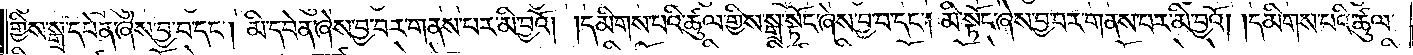གྱིས་སྒྲ་དབེན་ཞེས་བྱ་བ་དང༌། མི་དབེན་ཞེས་བྱ་བར་གནས་པར་མི་བྱའོ། །དམིགས་པའི་ཚུལ་གྱིས་སྒྲ་སྟོང་ཞེས་བྱ་བ་དང༌། མི་སྟོང་ཞེས་བྱ་བར་གནས་པར་མི་བྱའོ། །དམིགས་པའི་ཚུལ་
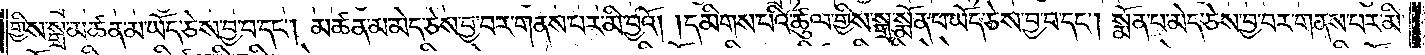གྱིས་སྒྲ་མཚན་མ་ཡོད་ཅེས་བྱ་བ་དང༌། མཚན་མ་མེད་ཅེས་བྱ་བར་གནས་པར་མི་བྱའོ། །དམིགས་པའི་ཚུལ་གྱིས་སྒྲ་སྨོན་པ་ཡོད་ཅེས་བྱ་བ་དང༌། སྨོན་པ་མེད་ཅེས་བྱ་བར་གནས་པར་མི་
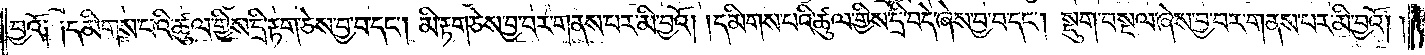བྱའོ༏ ༏དམིགས་པའི་ཚུལ་གྱིས་དྲི་རྟག་ཅེས་བྱ་བ་དང༌། མི་རྟག་ཅེས་བྱ་བར་གནས་པར་མི་བྱའོ། །དམིགས་པའི་ཚུལ་གྱིས་དྲི་བདེ་ཞེས་བྱ་བ་དང༌། སྡུག་བསྔལ་ཞེས་བྱ་བར་གནས་པར་མི་བྱའོ། །
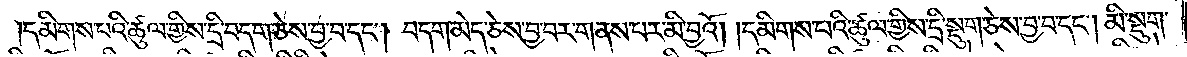དམིགས་པའི་ཚུལ་གྱིས་དྲི་བདག་ཅེས་བྱ་བ་དང༌། བདག་མེད་ཅེས་བྱ་བར་གནས་པར་མི་བྱའོ། །དམིགས་པའི་ཚུལ་གྱིས་དྲི་སྡུག་ཅེས་བྱ་བ་དང༌། མི་སྡུག་
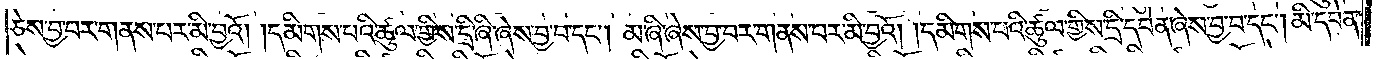ཅེས་བྱ་བར་གནས་པར་མི་བྱའོ། །དམིགས་པའི་ཚུལ་གྱིས་དྲི་ཞི་ཞེས་བྱ་བ་དང༌། མ་ཞི་ཞེས་བྱ་བར་གནས་པར་མི་བྱའོ། །དམིགས་པའི་ཚུལ་གྱིས་དྲི་དབེན་ཞེས་བྱ་བ་དང༌། མི་དབེན་
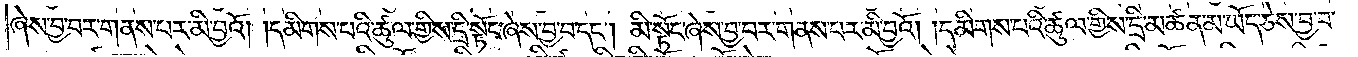ཞེས་བྱ་བར་གནས་པར་མི་བྱའོ། །དམིགས་པའི་ཚུལ་གྱིས་དྲི་སྟོང་ཞེས་བྱ་བ་དང༌། མི་སྟོང་ཞེས་བྱ་བར་གནས་པར་མི་བྱའོ། །དམིགས་པའི་ཚུལ་གྱིས་དྲི་མཚན་མ་ཡོད་ཅེས་བྱ་བ་
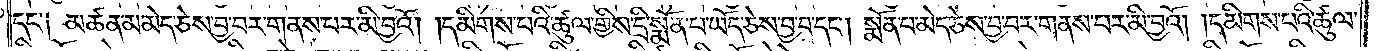དང༌༏ མཚན་མ་མེད་ཅེས་བྱ་བར་གནས་པར་མི་བྱའོ། །དམིགས་པའི་ཚུལ་གྱིས་དྲི་སྨོན་པ་ཡོད་ཅེས་བྱ་བ་དང༌། སྨོན་པ་མེད་ཅེས་བྱ་བར་གནས་པར་མི་བྱའོ། །དམིགས་པའི་ཚུལ་
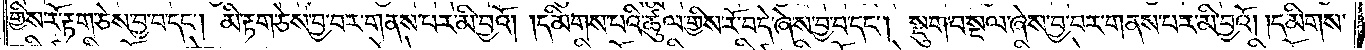གྱིས་རོ་རྟག་ཅེས་བྱ་བ་དང༌། མི་རྟག་ཅེས་བྱ་བར་གནས་པར་མི་བྱའོ། །དམིགས་པའི་ཚུལ་གྱིས་རོ་བདེ་ཞེས་བྱ་བ་དང༌། སྡུག་བསྔལ་ཞེས་བྱ་བར་གནས་པར་མི་བྱའོ། །དམིགས་
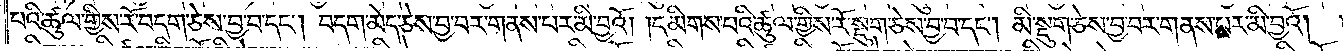པའི་ཚུལ་གྱིས་རོ་བདག་ཅེས་བྱ་བ་དང༌། བདག་མེད་ཅེས་བྱ་བར་གནས་པར་མི་བྱའོ། །དམིགས་པའི་ཚུལ་གྱིས་རོ་སྡུག་ཅེས་བྱ་བ་དང༌། མི་སྡུག་ཅེས་བྱ་བར་གནས་པར་མི་བྱའོ། །
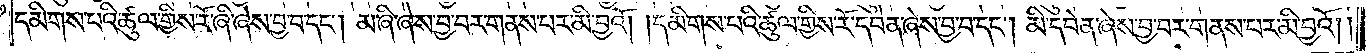དམིགས་པའི་ཚུལ་གྱིས་རོ་ཞི་ཞེས་བྱ་བ་དང༌། མ་ཞི་ཞེས་བྱ་བར་གནས་པར་མི་བྱའོ། །དམིགས་པའི་ཚུལ་གྱིས་རོ་དབེན་ཞེས་བྱ་བ་དང༌། མི་དབེན་ཞེས་བྱ་བར་གནས་པར་མི་བྱའོ། །
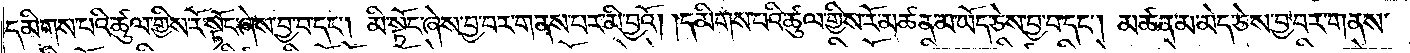དམིགས་པའི་ཚུལ་གྱིས་རོ་སྟོང་ཞེས་བྱ་བ་དང༌། མི་སྟོང་ཞེས་བྱ་བར་གནས་པར་མི་བྱའོ། །དམིགས་པའི་ཚུལ་གྱིས་རོ་མཚན་མ་ཡོད་ཅེས་བྱ་བ་དང༌། མཚན་མ་མེད་ཅེས་བྱ་བར་གནས་
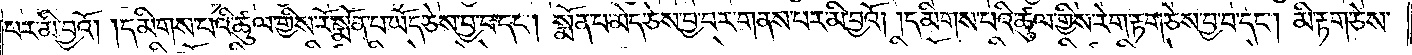པར་མི་བྱའོ། །དམིགས་པའི་ཚུལ་གྱིས་རོ་སྨོན་པ་ཡོད་ཅེས་བྱ་བ་དང༌། སྨོན་པ་མེད་ཅེས་བྱ་བར་གནས་པར་མི་བྱའོ། །དམིགས་པའི་ཚུལ་གྱིས་རེག་རྟག་ཅེས་བྱ་བ་དང༌། མི་རྟག་ཅེས་
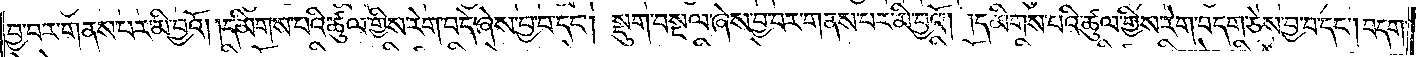བྱ་བར་གནས་པར་མི་བྱའོ། །དམིགས་པའི་ཚུལ་གྱིས་རེག་བདེ་ཞེས་བྱ་བ་དང༌། སྡུག་བསྔལ་ཞེས་བྱ་བར་གནས་པར་མི་བྱའོ། །དམིགས་པའི་ཚུལ་གྱིས་རེག་བདག་ཅེས་བྱ་བ་དང༌། བདག་
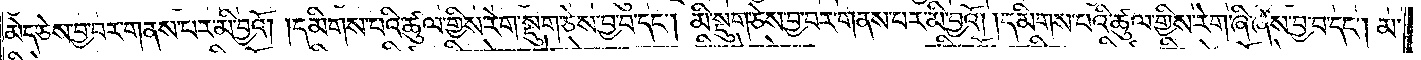མེད་ཅེས་བྱ་བར་གནས་པར་མི་བྱའོ། །དམིགས་པའི་ཚུལ་གྱིས་རེག་སྡུག་ཅེས་བྱ་བ་དང༌། མི་སྡུག་ཅེས་བྱ་བར་གནས་པར་མི་བྱའོ། །དམིགས་པའི་ཚུལ་གྱིས་རེག་ཞི་ཞེས་བྱ་བ་དང༌། མ་
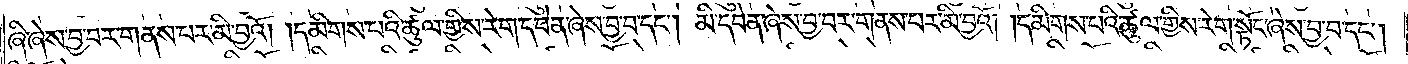ཞི་ཞེས་བྱ་བར་གནས་པར་མི་བྱའོ། །དམིགས་པའི་ཚུལ་གྱིས་རེག་དབེན་ཞེས་བྱ་བ་དང༌། མི་དབེན་ཞེས་བྱ་བར་གནས་པར་མི་བྱའོ། །དམིགས་པའི་ཚུལ་གྱིས་རེག་སྟོང་ཞེས་བྱ་བ་དང༌།
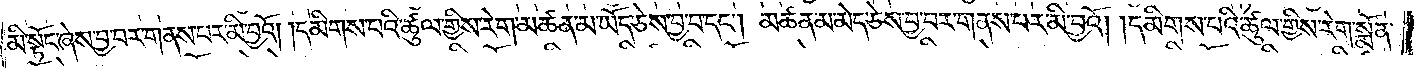མི་སྟོང་ཞེས་བྱ་བར་གནས་པར་མི་བྱའོ། །དམིགས་པའི་ཚུལ་གྱིས་རེག་མཚན་མ་ཡོད་ཅེས་བྱ་བ་དང༌། མཚན་མ་མེད་ཅེས་བྱ་བར་གནས་པར་མི་བྱའོ། དམིགས་པའི་ཚུལ་གྱིས་རེག་སྨོན་
